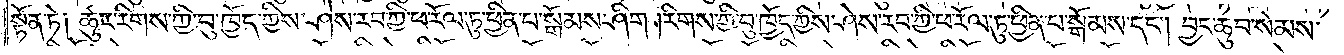སྟོན་ཏེ༑ ཚུར་རིགས་ཀྱི་བུ་ཁྱོད་ཀྱིས་ཤེས་རབ་ཀྱི་ཕ་རོལ་ཏུ་ཕྱིན་པ་སྒོམས་ཤིག །རིགས་ཀྱི་བུ་ཁྱོད་ཀྱིས་ཤེས་རབ་ཀྱི་ཕ་རོལ་ཏུ་ཕྱིན་པ་སྒོམས་དང༌། བྱང་ཆུབ་སེམས་
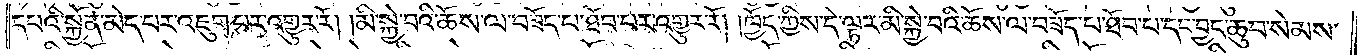དཔའི་སྐྱོན་མེད་པར་འཇུག་པར་འགྱུར་རོ། །མི་སྐྱེ་བའི་ཆོས་ལ་བཟོད་པ་ཐོབ་པར་འགྱུར་རོ། །ཁྱོད་ཀྱིས་དེ་ལྟར་མི་སྐྱེ་བའི་ཆོས་ལ་བཟོད་པ་ཐོབ་པ་དང་བྱང་ཆུབ་སེམས་
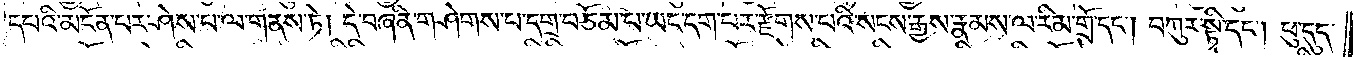དཔའི་མངོན་པར་ཤེས་པ་ལ་གནས་ཏེ། དེ་བཞིན་གཤེགས་པ་དགྲ་བཅོམ་པ་ཡང་དག་པར་རྫོགས་པའི་སངས་རྒྱས་རྣམས་ལ་རིམ་གྲོ་དང༌། བཀུར་སྟི་དང༌། ཕུ་དུད་
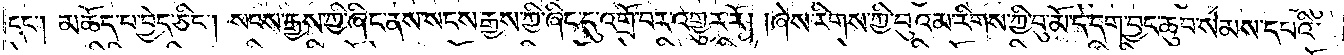དང༌། མཆོད་པ་བྱེད་ཅིང༌། སངས་རྒྱས་ཀྱི་ཞིང་ནས་སངས་རྒྱས་ཀྱི་ཞིང་དུ་འགྲོ་བར་འགྱུར་རོ། །ཞེས་རིགས་ཀྱི་བུའམ་རིགས་ཀྱི་བུ་མོ་དེ་དག་བྱང་ཆུབ་སེམས་དཔའི་
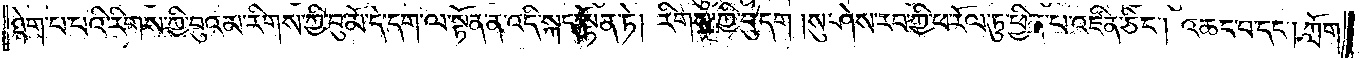ཐེག་པ་པའི་རིགས་ཀྱི་བུའམ་རིགས་ཀྱི་བུ་མོ་དེ་དག་ལ་སྟོན་ན་འདི་སྐད་སྟོན་ཏེ། རིགས་ཀྱི་བུ་དག །སུ་ཤེས་རབ་ཀྱི་ཕ་རོལ་ཏུ་ཕྱིན་པ་འཛིན་ཅིང༌། འཆང་བ་དང༌། ཀློག་
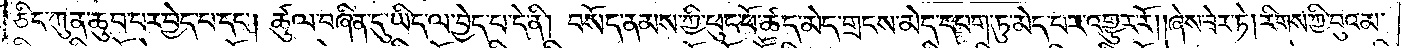ཅིང་ཀུན་ཆུབ་པར་བྱེད་པ་དང༌། ཚུལ་བཞིན་དུ་ཡིད་ལ་བྱེད་པ་དེ་ནི། བསོད་ནམས་ཀྱི་ཕུང་པོ་ཚད་མེད་གྲངས་མེད་དཔག་ཏུ་མེད་པར་འགྱུར་རོ། །ཞེས་ཟེར་ཏེ། རིགས་ཀྱི་བུའམ་
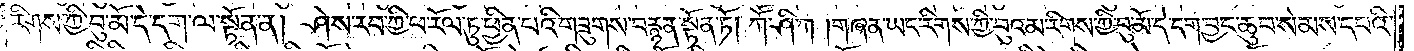རིགས་ཀྱི་བུ་མོ་དེ་དག་ལ་སྟོན་ན། ཤེས་རབ་ཀྱི་ཕ་རོལ་ཏུ་ཕྱིན་པའི་གཟུགས་བརྙན་སྟོན་ཏོ། །ཀཽ་ཤི་ཀ། གཞན་ཡང་རིགས་ཀྱི་བུའམ་རིགས་ཀྱི་བུ་མོ་དེ་དག་བྱང་ཆུབ་སེམས་དཔའི་
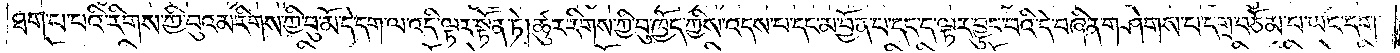ཐེག་པ་པའི་རིགས་ཀྱི་བུའམ་རིགས་ཀྱི་བུ་མོ་དེ་དག་ལ་འདི་ལྟར་སྟོན་ཏེ། ཚུར་རིགས་ཀྱི་བུ་ཁྱོད་ཀྱིས་འདས་པ་དང་མ་བྱོན་པ་དང་ད་ལྟར་བྱུང་བའི་དེ་བཞིན་གཤེགས་པ་དགྲ་བཅོམ་པ་ཡང་དག་
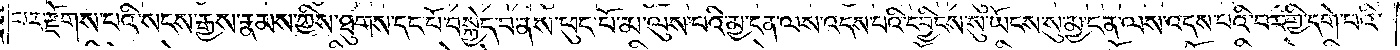པར་རྫོགས་པའི་སངས་རྒྱས་རྣམས་ཀྱིས་ཐུགས་དང་པོ་བསྐྱེད་བ་ནས་ཕུང་པོ་མ་ལུས་པའི་མྱ་ངན་ལས་འདས་པའི་དབྱིངས་སུ་ཡོངས་སུ་མྱ་ངན་ལས་འདས་པའི་བར་གྱི་དགེ་བའི་
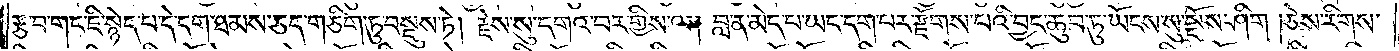རྩ་བ་གང་ཇི་སྙེད་པ་དེ་དག་ཐམས་ཅད་གཅིག་ཏུ་བསྡུས་ཏེ། རྗེས་སུ་དགའ་བར་གྱིས་ལ། བླ་ན་མེད་པ་ཡང་དག་པར་རྫོགས་པའི་བྱང་ཆུབ་ཏུ་ཡོངས་སུ་སྔོས་ཤིག །ཅེས་རིགས་
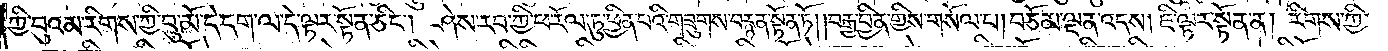ཀྱི་བུའམ་རིགས་ཀྱི་བུ་མོ་དེ་དག་ལ་དེ་ལྟར་སྟོན་ཅིང༌། ཤེས་རབ་ཀྱི་ཕ་རོལ་ཏུ་ཕྱིན་པའི་གཟུགས་བརྙན་སྟོན་ཏོ། །བརྒྱ་བྱིན་གྱིས་གསོལ་པ། བཅོམ་ལྡན་འདས། ཇི་ལྟར་སྟོན་ན། རིགས་ཀྱི་
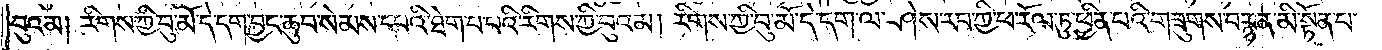བུའམ། རིགས་ཀྱི་བུ་མོ་དེ་དག་བྱང་ཆུབ་སེམས་དཔའི་ཐེག་པ་པའི་རིགས་ཀྱི་བུའམ། རིགས་ཀྱི་བུ་མོ་དེ་དག་ལ་ཤེས་རབ་ཀྱི་ཕ་རོལ་ཏུ་ཕྱིན་པའི་གཟུགས་བརྙན་མི་སྟོན་པ་
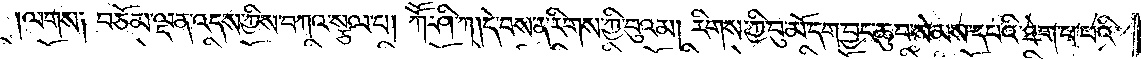ལགས༑ བཅོམ་ལྡན་འདས་ཀྱིས་བཀའ་སྩལ་པ། ཀཽ་ཤི་ཀ། དེ་བས་ན་རིགས་ཀྱི་བུའམ། རིགས་ཀྱི་བུ་མོ་དག་བྱང་ཆུབ་སེམས་དཔའི་ཐེག་པ་པའི་
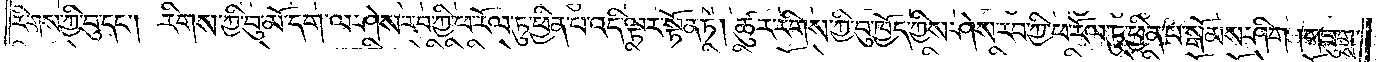རིགས་ཀྱི་བུ་དང༌། རིགས་ཀྱི་བུ་མོ་དག་ལ་ཤེས་རབ་ཀྱི་ཕ་རོལ་ཏུ་ཕྱིན་པ་འདི་ལྟར་སྟོན་ཏེ། ཚུར་རིགས་ཀྱི་བུ་ཁྱོད་ཀྱིས་ཤེས་རབ་ཀྱི་ཕ་རོལ་ཏུ་ཕྱིན་པ་སྒོམས་ཤིག །གཟུགས་
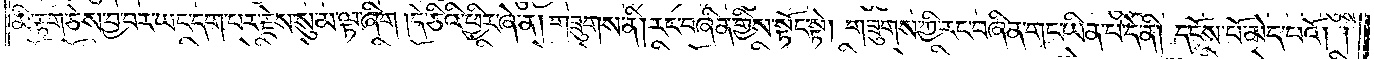མི་རྟག་ཅེས་བྱ་བར་ཡང་དག་པར་རྗེས་སུ་མ་ལྟ་ཞིག །དེ་ཅིའི་ཕྱིར་ཞེ་ན། གཟུགས་ནི། རང་བཞིན་གྱིས་སྟོང་སྟེ། གཟུགས་ཀྱི་རང་བཞིན་གང་ཡིན་པ་དེ་ནི། དངོས་པོ་མེད་པའོ། །
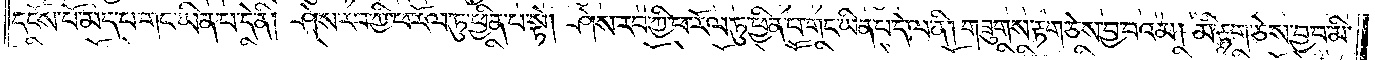དངོས་པོ་མེད་པ་གང་ཡིན་པ་དེ་ནི། ཤེས་རབ་ཀྱི་ཕ་རོལ་ཏུ་ཕྱིན་པ་སྟེ། ཤེས་རབ་ཀྱི་ཕ་རོལ་ཏུ་ཕྱིན་པ་གང་ཡིན་པ་དེ་ལ་ནི། གཟུགས་རྟག་ཅེས་བྱ་བའམ། མི་རྟག་ཅེས་བྱ་བ་མི་
